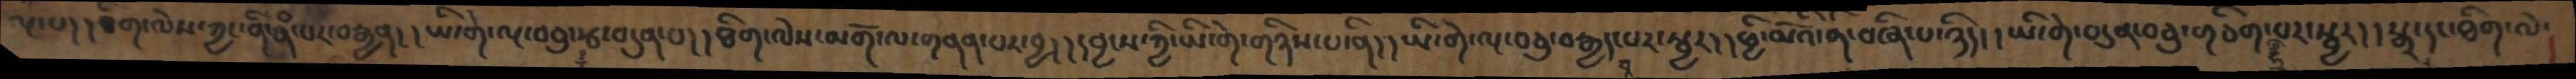ལྔ་པ།།ཐིག་ལེས་ཀྱང་ནི་རྣཾ་པར་བརྒྱན།།ཡི་གེ་ལྔ་བཅུ་རྩ་བདུན་པ།།ཐིག་ལེས་མགོ་ལ་གནན་པར་བྱ།།དབྱངས་ཀྱི་ཡི་གེ་གཉིས་པ་ནི།།ཡི་གེ་ལྔ་བཅུ་བརྒྱད་པར་སྦྱར།།ཕྱི་མོའི་ནི་བཞི་པ་ཉིད།།ཡི་གེ་བདུན་བཅུ་གཅིག་པར་སྦྱར།།སྒྲ་དང་ཐིག་ལེ་
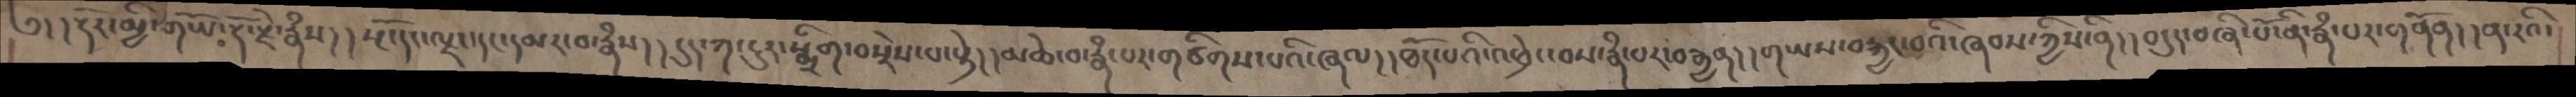༄། །རྡོར་མྱི་གཡོ་རྡོ་རྗེ་རྣཾས།།སྔོ་དང་ལྗང་དང་དམར་བ་རྣཾས།།དུད་ཀ་ངུར་སྨྲིག་བསྲེས་པ་སྟེ།།མཆེ་བ་རྣཾ་པར་གཙིགས་པའི་ཞལ།།ཐོད་པའི་འཕྲེང་བས་རྣཾ་པར་བརྒྱན།།གཡས་བརྐྱང་བའི་ཞབས་ཀྱིས་ནི།།བདུད་བཞི་པོ་ནི་རྣཾ་པར་གནོན།།ན་རའི་
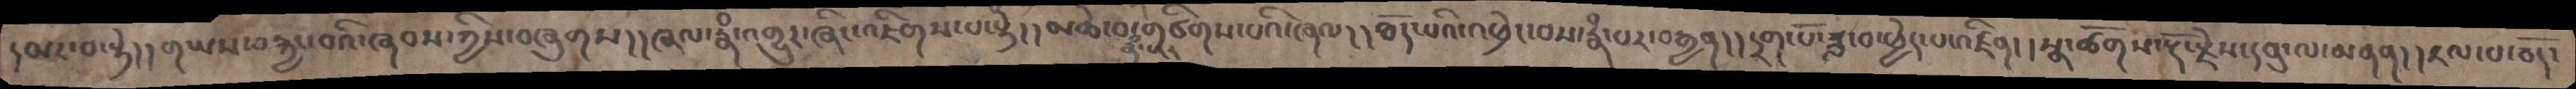དམར་བ་སྟེ།།གཡས་བརྐྱང་བའི་ཞབས་ཀྱིས་བཞུགས།།ཞལ་རྣཾ་འགྱུར་ཞིང་འཇིགས་པ་སྟེ།།མཆེ་བ་རྣཾ་པར་གཙིགས་པའི་ཞལ།།ཐོད་པའི་འཕྲེང་བས་རྣཾ་པར་བརྒྱན།།དྲག་པོ་ཟླ་བ་ཕྱེད་པ་འཛིན།།སྣ་ཚོགས་རྡོ་རྗེས་དབུ་ལ་མནན།།རལ་པ་ཅོད་
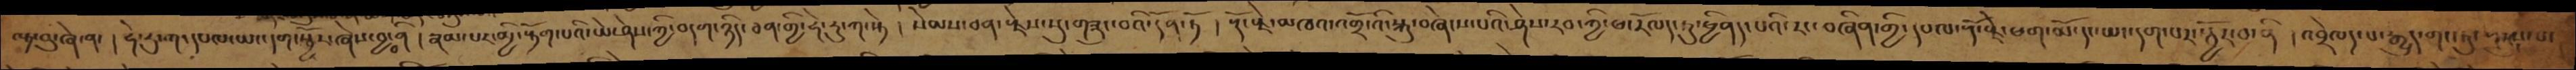ལྟ་བུ་ཞེ་ན་། ཧེ་རུ་ཀ་དཔལ་ཡང་དག་སྦྱོར་ཞེས་བྱ་བ་ནི། རྣམ་པར་མྱི་རྟོག་པའི་ཡེ་ཤེས་ཀྱི་བདག་ཉིད་ཅན་གྱི་ཧེ་རུ་ཀ་སྟེ། སེམས་ཅན་རྗེས་སུ་གཟུང་བའི་དོན་ཏོ། རྡོ་རྗེ་མཁའ་འགྲོ་འི་སྐུ་བཞེངས་པའི་ཤེས་རབ་ཀྱི་ཕ་རོལད་ཏུ་ཕྱིནད་པའི་རང་བཞིན་གྱི་དཔལ་རྡོ་རྗེ་ཕག་མོ་དང་ཡང་དག་པར་སྦྱོར་བ་ནི། འབྲེལད་པ་རྒྱུད་གང་ཏུ་གསུང་པ་
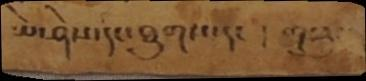ཡེ་ཤེས་དང་ཐུགས་དང ། གསུམ
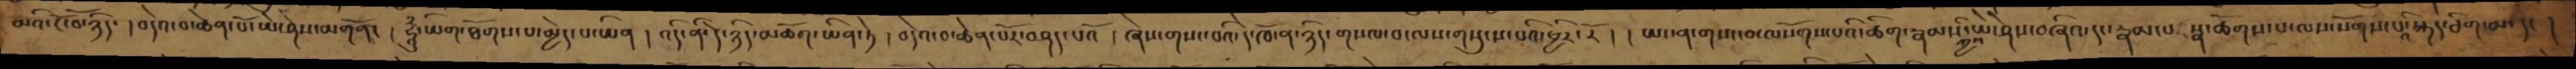མའི་ངོ་བོ་ཉིད་། བདེའ་བ་ཆེན་པོ་ཡེ་ཤེས་མགོན་། ཧཱུྃ་ཡིག་ཐོགས་པ་མྱེད་པ་ཡིན། འདི་ནི་དེ་ཉིད་མཆོག་ཡིན་ཏེ། བདེའ་བ་ཆེན་པོར་བཤད་པའོ། ཞེས་གསང་བའི་དེ་ཁོ་ན་ཉིད་གསལ་བ་ལས་གསུངས་པའི་ཕྱིར་རོ། །ཡང་ན་གསང་བ་ལསོགས་པའི་ཚིག་རྣམས་ཀྱིས་ཡེ་ཤེས་བཞིའ་དང་རྣམ་པར་སྣ་ཚོགས་པ་ལས་སོགས་པའི་སྐད་ཅིག་མ་དང།
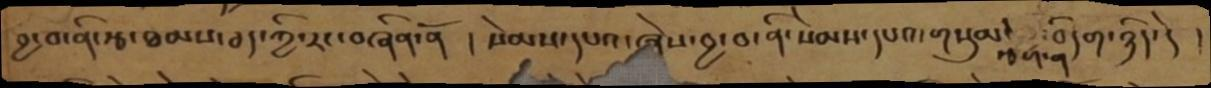བྱ་བ་ནི་རྩ་ཐམས་ཅད་ཀྱི་རང་བཞིན་ནོ། སེམས་དཔའ་ཞེས་བྱ་བ་ནི་སེམས་དཔའ་གསུམ་རྩག་ནི་བདག་ཉིད་དེ།
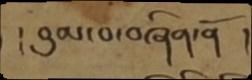། བུམ་པ་བཞིན་ནོ །
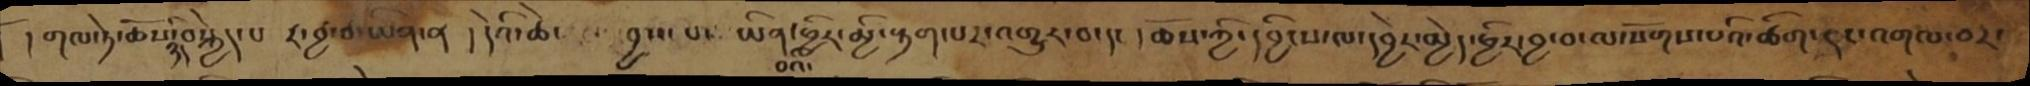།གལ་ཏེ་ཆོས་ཉིད་བསྐྱེད་པ ར་བྱ་བ་ཡིན་ན། དེའི་ཚེས་བྱས་པ་ ཡིན་པའི་ཕྱིར་མྱི་རྟག་པར་འགྱུར་བ་དང། ཆོས་ཀྱི་དབྱིངས་ལ་དབྱེར་མྱེད་ཕྱིར་བྱ་བ་ལསོགས་པའི་ཚིག་དང་འགལ་བར་
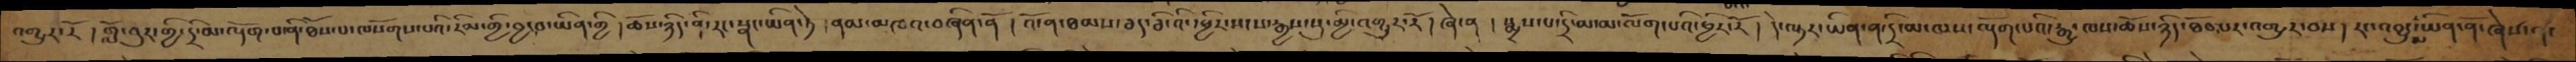འགྱུར་རོ། གློ་བུར་གྱི་དྲི་མ་ལྡོག་བ་ནི་ཐོས་པ་ལསོགས་པའི་རིམ་གྱི་བྱ་བ་ཡིན་གྱི། ཆོས་ཉིད་ནི་རང་སྣང་ཡིན་ཏེ། ནམ་མཁའ་བཞིན་ནོ། འོ་ན་ཐམས་ཅད་ཅི་འི་ཕྱིར་སངས་རྒྱས་སུ་མྱི་འགྱུར་རོ། ཞེ་ན། སྨྲས་པ་དྲི་མ་མ་ལོག་པའི་ཕྱིར་རོ། དེ་ལྟར་ཡིན་ན་དྲི་མ་ལས་ལྡོག་པའི་རྒྱུ་ལས་ཆོས་ཉིད་ཐོབ་པར་འགྱུར་བས། རང་འབྱུང་མ་ཡིན་ནོ་ཞེས་དང་
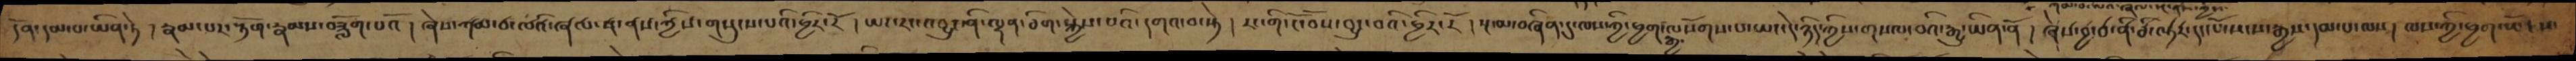དོན་དམ་པ་ཡིན་ཏེ། རྣམ་པར་རྟོག་རྣམས་བཟློག་པའོ། ཞེས་ཀམ་ཙ་ལའི་ཞལ་ན་ནས་ཀྱིས་གསུངས་པའི་ཕྱིར་རོ། ཡང་རང་འབྱུང་ནི་ལྷན་ཅིག་སྐྱེས་པའི་དགའ་བ་སྟེ། རང་གི་ངོ་བོས་བྱུང་བའི་ཕྱིར་རོ། སྔ་མ་བཞིན་དུ་ལས་ཀྱི་ཕྱག་རྒྱ་ལསོགས་པ་ཡང་དེ་ཉིད་ཀྱིས་གསལ་བའི་རྒྱུ་ཡིན་ནོ། ཞེས་བྱ་བ་ནི་ཅི་ལྟར་དང་པོ་སངས་རྒྱས་དམ་པ་ལས། ལས་ཀྱི་ཕྱག་ཡོངས་
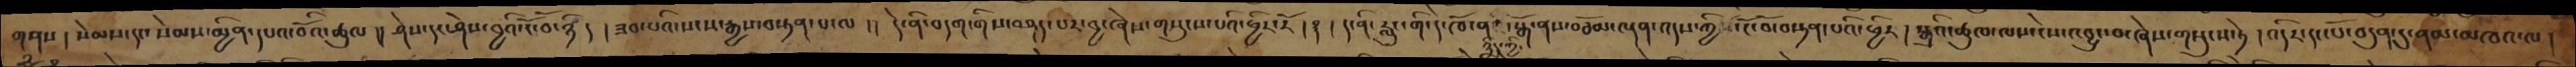གནས། སེམས་དང་སེམས་མྱིན་དཔའ་བོའི་ཚུལ། ། ཤེས་དང་ཤེས་བྱའི་ངོ་བོ་ཉིད། ཟབ་པའི་སངས་རྒྱས་བསྟན་པ་ལ། དེ་ནི་བདག་གིས་བཤད་པར་བྱ་ཞེས་གསུངས་པའི་ཕྱིར་རོ།  ༑ ། ད་ནི་རླུང་གི་དེ་ཁོ་ན་ཉིད་ཀྱི་སྒོ་ནས་བཅོམ་ལྡན་འདས་ཀྱི་ངོ་བོ་བསྟན་པའི་ཕྱིར། སྒྲའི་ཚུལ་ལ་ངེས་འབྱུང་བ་ཞེས་གསུངས་ཏེ། འདིར་དང་པོ་བདུན་དུ་ནམ་མཁའ་ལ།
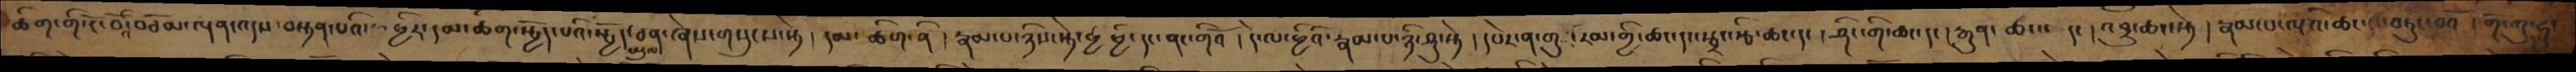ཚིག་གི་ངོ་བོའི་བཅོམ་ལྡན་འདས་བསྟན་པའི་ཕྱིར་དམ་ཚིག་སྤྱོད་པའི་སྤྱོད་ཡུལ་ཅན་ཞེས་གསུངས་སྟེ། དམ་ཚིག་ནི། རྣམ་པ་ཉིས་སྟེ་ཕྱེ་ཕྱི་དང་ནང་གིའོ། དེ་ལ་ཕྱིའི་རྣམ་པ་ཉི་ཤུ་སྟེ། དཔེར་ན་གུ་རམ་གྱི་ཆང་དང་སྦྲང་རྩི་ཆང་དང། ཤིང་གི་ཆང་དང། རྒུན་ཆང་དང། འབྲུ་ཆང་སྟེ། རྣམ་པ་ལྔའི་ཆང་བཏུང་བའོ། གོ་ཀུ་ཧ
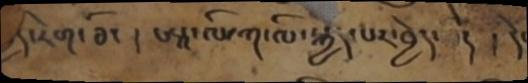བྱེད་རེག་ཅིང། ཨཱ་ལི་ཀ་ལི་སྐྱེད་པར་བྱེད་ དེ ། དེ་
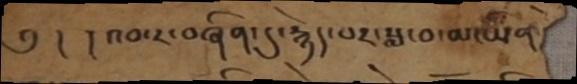༄།   །འབ་ར་བཞིན་དུ་རྙེད་པར་སྨ་བ་མ་ཡིན
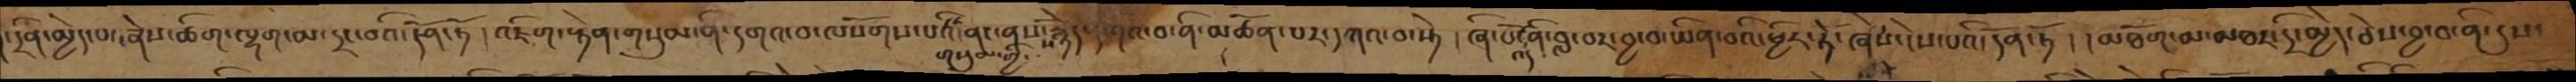་དྲིན་མྱེད་པ་ཞེས་ཚིག་ལྷག་མ་དྲང་བའི་དོན་ཏོ། འཇིག་རྟེན་གསུམ་ནི་དགའ་བ་ལསོགས་པའི་གསུམ་གྱི་ནང་ནས་རྙེད་དགའ་བ་ནི་མཚོན་པར་དཀའ་བ་སྟེ། ཞི་པ་འདི་ནི་བླ་བར་བྱ་བ་ཡིན་བའི་ཕྱིར་ཏོ་ཞེས་ངེས་པའི་དོན་ཏོ། །མཐོག་མ་མཐར་དྲི་མྱེད་ཅེས་བྱ་བ་ནི་དུས་
